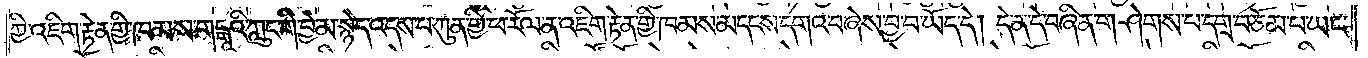ཀྱི་འཇིག་རྟེན་གྱི་ཁམས་གངྒཱའི་ཀླུང་གི་བྱེ་མ་སྙེད་འདས་པ་ཀུན་གྱི་ཕ་རོལ་ན་འཇིག་རྟེན་གྱི་ཁམས་མདངས་དགའ་བ་ཞེས་བྱ་བ་ཡོད་དེ། དེ་ན་དེ་བཞིན་གཤེགས་པ་དགྲ་བཅོམ་པ་ཡང་
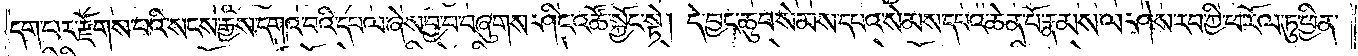དག་པར་རྫོགས་པའི་སངས་རྒྱས་དགའ་བའི་དཔལ་ཞེས་བྱ་བ་བཞུགས་ཤིང་འཚོ་སྐྱོང་སྟེ། དེ་བྱང་ཆུབ་སེམས་དཔའ་སེམས་དཔའ་ཆེན་པོ་རྣམས་ལ་ཤེས་རབ་ཀྱི་ཕ་རོལ་ཏུ་ཕྱིན་
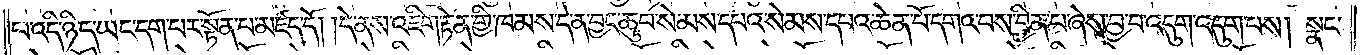པ་འདི་ཉིད་ཡང་དག་པར་སྟོན་པ་མཛད་དོ། །དེ་ནས་འཇིག་རྟེན་གྱི་ཁམས་དེ་ན་བྱང་ཆུབ་སེམས་དཔའ་སེམས་དཔའ་ཆེན་པོ་དགའ་བས་བྱིན་པ་ཞེས་བྱ་བ་འདུག་འདུག་པས། སྣང་
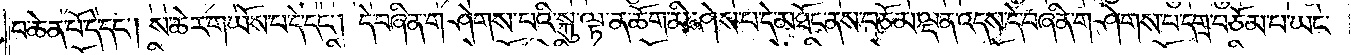བ་ཆེན་པོ་དེ་དང༌། ས་ཆེར་གཡོས་པ་དེ་དང༌། དེ་བཞིན་གཤེགས་པའི་སྐུ་ལྟ་ན་ཆོག་མི་ཤེས་པ་དེ་མཐོང་ནས་བཅོམ་ལྡན་འདས་དེ་བཞིན་གཤེགས་པ་དགྲ་བཅོམ་པ་ཡང་
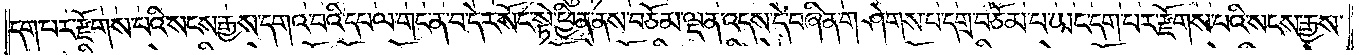དག་པར་རྫོགས་པའི་སངས་རྒྱས་དགའ་བའི་དཔལ་གང་ན་བ་དེར་སོང་སྟེ་ཕྱིན་ནས་བཅོམ་ལྡན་འདས་དེ་བཞིན་གཤེགས་པ་དགྲ་བཅོམ་པ་ཡང་དག་པར་རྫོགས་པའི་སངས་རྒྱས་
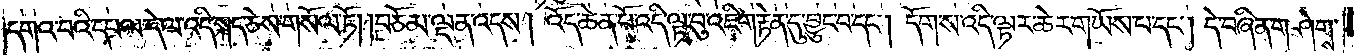དགའ་བའི་དཔལ་དེ་ལ་འདི་སྐད་ཅེས་གསོལ་ཏོ། །བཅོམ་ལྡན་འདས། འོད་ཆེན་པོ་འདི་ལྟ་བུ་འཇིག་རྟེན་དུ་བྱུང་བ་དང༌། དོག་ས་འདི་ལྟར་ཆེར་གཡོས་པ་དང༌། དེ་བཞིན་གཤེགས་
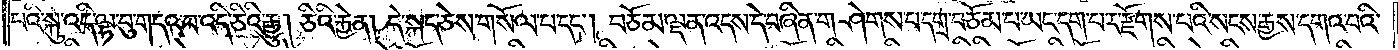པའི་སྐུ་འདི་ལྟ་བུ་གདའ་བ་འདི་ཅིའི་རྒྱུ། ཅིའི་རྐྱེན། དེ་སྐད་ཅེས་གསོལ་པ་དང༌། བཅོམ་ལྡན་འདས་དེ་བཞིན་གཤེགས་པ་དགྲ་བཅོམ་པ་ཡང་དག་པར་རྫོགས་པའི་སངས་རྒྱས་དགའ་བའི་
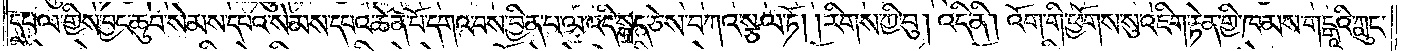དཔལ་གྱིས་བྱང་ཆུབ་སེམས་དཔའ་སེམས་དཔའ་ཆེན་པོ་དགའ་བས་བྱིན་པ་ལ་འདི་སྐད་ཅེས་བཀའ་སྩལ་ཏོ། །རིགས་ཀྱི་བུ། འདི་ནི། འོག་གི་ཕྱོགས་སུ་འཇིག་རྟེན་གྱི་ཁམས་གངྒཱའི་ཀླུང་
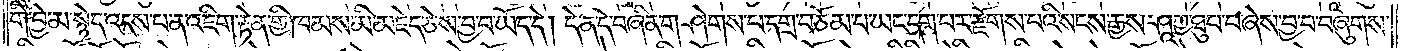གི་བྱེ་མ་སྙེད་འདས་པ་ན་འཇིག་རྟེན་གྱི་ཁམས་མི་མཇེད་ཅེས་བྱ་བ་ཡོད་དེ། དེ་ན་དེ་བཞིན་གཤེགས་པ་དགྲ་བཅོམ་པ་ཡང་དག་པར་རྫོགས་པའི་སངས་རྒྱས་ཤཱཀྱ་ཐུབ་པ་ཞེས་བྱ་བ་བཞུགས་
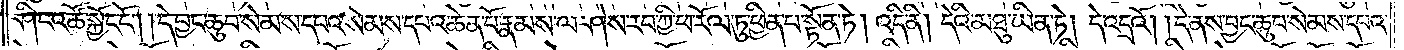ཤིང་འཚོ་སྐྱོང་ངོ༌། །དེ་བྱང་ཆུབ་སེམས་དཔའ་སེམས་དཔའ་ཆེན་པོ་རྣམས་ལ་ཤེས་རབ་ཀྱི་ཕ་རོལ་ཏུ་ཕྱིན་པ་སྟོན་ཏེ། འདི་ནི། དེའི་མཐུ་ཡིན་ཏེ། དེ་འདྲའོ། །དེ་ནས་བྱང་ཆུབ་སེམས་དཔའ་
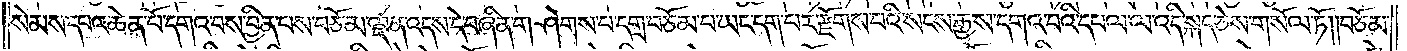སེམས་དཔའ་ཆེན་པོ་དགའ་བས་བྱིན་པས་བཅོམ་ལྡན་འདས་དེ་བཞིན་གཤེགས་པ་དགྲ་བཅོམ་པ་ཡང་དག་པར་རྫོགས་པའི་སངས་རྒྱས་དགའ་བའི་དཔལ་ལ་འདི་སྐད་ཅེས་གསོལ་ཏོ། །བཅོམ་
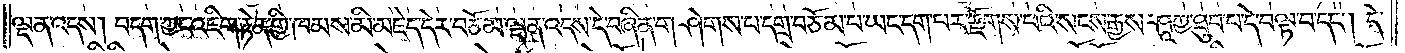ལྡན་འདས། བདག་ཀྱང་འཇིག་རྟེན་གྱི་ཁམས་མི་མཇེད་དེར་བཅོམ་ལྡན་འདས་དེ་བཞིན་གཤེགས་པ་དགྲ་བཅོམ་པ་ཡང་དག་པར་རྫོགས་པའི་སངས་རྒྱས་ཤཱཀྱ་ཐུབ་པ་དེ་བལྟ་བ་དང༌། དེ་
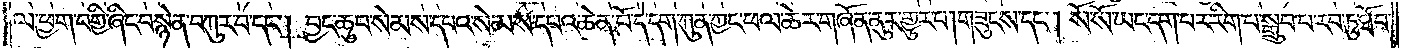ལ་ཕྱག་བགྱི་ཞིང་བསྙེན་བཀུར་བ་དང༌། བྱང་ཆུབ་སེམས་དཔའ་སེམས་དཔའ་ཆེན་པོ་དེ་དག་ཀུན་ཀྱང་ཕལ་ཆེར་གཞོན་ནུར་གྱུར་པ། གཟུངས་དང༌། སོ་སོ་ཡང་དག་པར་རིག་པ་སྒྲུབ་པ་རབ་ཏུ་ཐོབ་
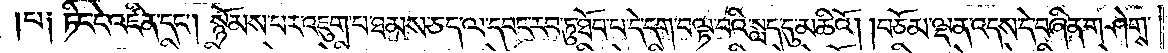པ༑ ཏིང་ངེ་འཛིན་དང༌། སྙོམས་པར་འཇུག་པ་ཐམས་ཅད་ལ་དབང་རབ་ཏུ་ཐོབ་པ་དེ་དག་བལྟ་བའི་སླད་དུ་མཆིའོ། །བཅོམ་ལྡན་འདས་དེ་བཞིན་གཤེགས་
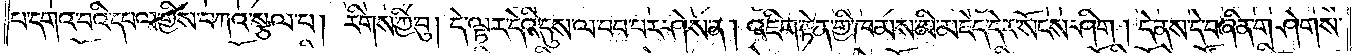པ་དགའ་བའི་དཔལ་གྱིས་བཀའ་སྩལ་པ། རིགས་ཀྱི་བུ། དེ་ལྟར་དེའི་དུས་ལ་བབ་པར་ཤེས་ན། འཇིག་རྟེན་གྱི་ཁམས་མི་མཇེད་དེར་སོངས་ཤིག །དེ་ནས་དེ་བཞིན་གཤེགས་
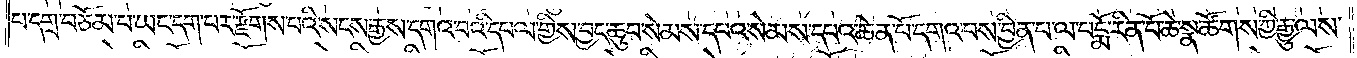པ་དགྲ་བཅོམ་པ་ཡང་དག་པར་རྫོགས་པའི་སངས་རྒྱས་དགའ་བའི་དཔལ་གྱིས་བྱང་ཆུབ་སེམས་དཔའ་སེམས་དཔའ་ཆེན་པོ་དགའ་བས་བྱིན་པ་ལ་པདྨོ་རིན་པོ་ཆེ་སྣ་ཚོགས་ཀྱི་རྒྱུ་ལས་
